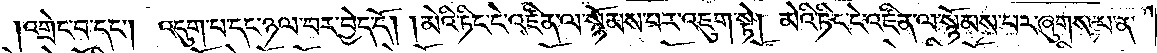འགྲེང་བ་དང༌། འདུག་པ་དང་ཉལ་བར་བྱེད་དོ། །མེའི་ཏིང་ངེ་འཛིན་ལ་སྙོམས་པར་འཇུག་སྟེ། མེའི་ཏིང་ངེ་འཛིན་ལ་སྙོམས་པར་ཞུགས་པ་ན་
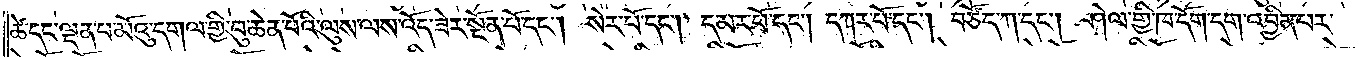ཚེ་དང་ལྡན་པ་མོའུ་དགལ་གྱི་བུ་ཆེན་པོའི་ལུས་ལས་འོད་ཟེར་སྔོན་པོ་དང༌། སེར་པོ་དང༌། དམར་པོ་དང༌། དཀར་པོ་དང༌། བཙོད་ཀ་དང༌། ཤེལ་གྱི་ཁ་དོག་དག་འབྱིན་པར་
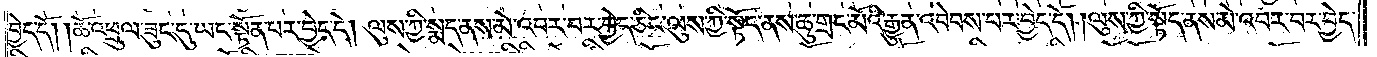བྱེད་དོ། །ཆོ་འཕྲུལ་ཟུང་དུ་ཡང་སྟོན་པར་བྱེད་དེ། ལུས་ཀྱི་སྨད་ནས་མེ་འབར་བར་བྱེད་ཅིང་ལུས་ཀྱི་སྟོད་ནས་ཆུ་གྲང་མོའི་རྒྱུན་འབེབས་པར་བྱེད་དོ། །ལུས་ཀྱི་སྟོད་ནས་མེ་འབར་བར་བྱེད་
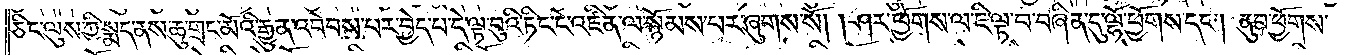ཅིང་ལུས་ཀྱི་སྨད་ནས་ཆུ་གྲང་མོའི་རྒྱུན་འབེབས་པར་བྱེད་པ་དེ་ལྟ་བུའི་ཏིང་ངེ་འཛིན་ལ་སྙོམས་པར་ཞུགས་སོ། །ཤར་ཕྱོགས་ལ་ཇི་ལྟ་བ་བཞིན་དུ་ལྷོ་ཕྱོགས་དང༌། ནུབ་ཕྱོགས་
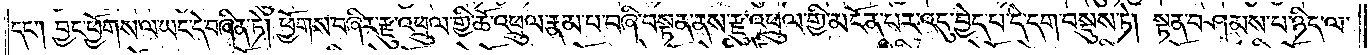དང༌། བྱང་ཕྱོགས་ལ་ཡང་དེ་བཞིན་ཏེ། ཕྱོགས་བཞིར་རྫུ་འཕྲུལ་གྱི་ཆོ་འཕྲུལ་རྣམ་པ་བཞི་བསྟན་ནས་རྫུ་འཕྲུལ་གྱི་མངོན་པར་འདུ་བྱེད་པ་དེ་དག་བསྡུས་ཏེ། སྟན་བཤམས་པ་ཉིད་ལ་
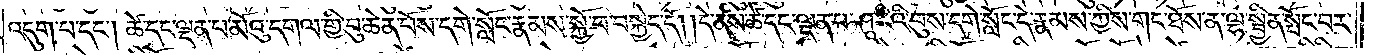འདུག་པ་དང༌། ཚེ་དང་ལྡན་པ་མོའུ་དགལ་གྱི་བུ་ཆེན་པོས་དགེ་སློང་རྣམས་སྐྱོ་བ་བསྐྱེད་དོ། །དེ་ནས་ཚེ་དང་ལྡན་པ་ཤཱ་རིའི་བུས་དགེ་སློང་དེ་རྣམས་ཀྱིས་གང་ཐོས་ན་ལྷ་སྦྱིན་སྤོང་བར་
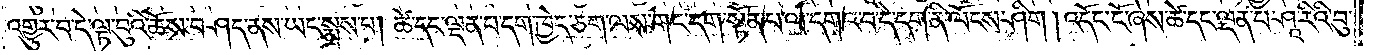འགྱུར་བ་དེ་ལྟ་བུའི་ཆོས་བཤད་ནས་ཡང་སྨྲས་པ། ཚེ་དང་ལྡན་པ་དག་ཁྱེད་ཅག་ལས་གང་དག་སྟོན་པ་ལ་དགའ་བ་དེ་དག་ནི་ལོངས་ཤིག །འདོང་ངོ་ཞེས་ཚེ་དང་ལྡན་པ་ཤཱ་རིའི་བུ་
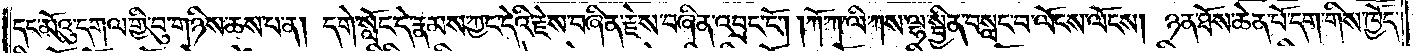དང་མོའུ་དགལ་གྱི་བུ་གཉིས་ཆས་པ་ན། དགེ་སློང་དེ་རྣམས་ཀྱང་དེའི་རྗེས་བཞིན་རྗེས་བཞིན་འབྲང་ངོ༌། །ཀོ་ཀ་ལི་ཀས་ལྷ་སྦྱིན་བསླང་བ་ལོངས་ལོངས། ཉན་ཐོས་ཆེན་པོ་དག་གིས་ཁྱོད་
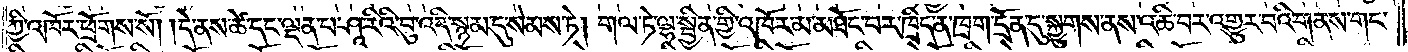ཀྱི་འཁོར་ཕྲོགས་སོ། །དེ་ནས་ཚེ་དང་ལྡན་པ་ཤཱ་རིའི་བུ་འདི་སྙམ་དུ་སེམས་ཏེ། གལ་ཏེ་ལྷ་སྦྱིན་གྱི་འཁོར་མ་མཐོང་བར་ཁྲིད་ན་ཁྲག་དྲོན་དུ་སྐྱུགས་ནས་འཆི་བར་འགྱུར་བའི་གནས་གང་
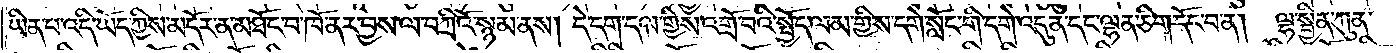ཡིན་པ་འདི་ཡོད་ཀྱིས་མདོར་ན་མཐོང་བ་ཁོ་ནར་བྱས་ལ་བཀྲིའོ་སྙམ་ནས། དེ་དག་དལ་གྱིས་འགྲོ་བའི་སྤྱོད་ལམ་གྱིས་དགེ་སློང་གི་དགེ་འདུན་དང་ལྷན་ཅིག་དོང་བ་ན། ལྷ་སྦྱིན་ཀུན་
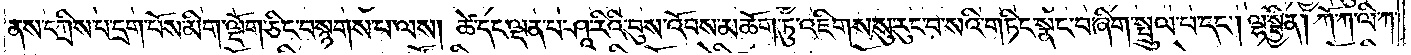ནས་དཀྲིས་པ་དྲག་པོས་མིག་ལྡོག་ཅིང་བསྙགས་པ་ལས། ཚེ་དང་ལྡན་པ་ཧཱ་རིའི་བུས་འོབས་མཆོག་ཏུ་འཇིགས་སུ་རུང་བ་སའི་གཏིང་སྣང་བ་ཞིག་སྤྲུལ་པ་དང༌། ལྷ་སྦྱིན། ཀོ་ཀ་ལི་ཀ་
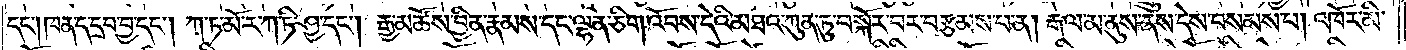དང༌། ཁན་ད་དྲབ་བྱ་དང༌། ཀ་ཏ་མོར་ཀ་ཏི་ཤྱ་དང༌། རྒྱ་མཚོས་བྱིན་རྣམས་དང་ལྷན་ཅིག་འོབས་དེའི་མཐའ་ཀུན་ཏུ་བསྐོར་བར་བརྩམས་པ་ན། རྒལ་མ་ནུས་ནས་དེས་བསམས་པ། འཁོར་མི་
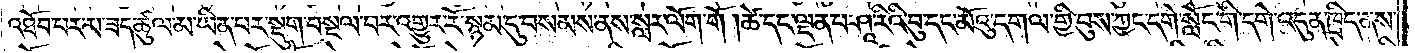འཐོབ་པར་མ་ཟད་ཚུལ་མ་ཡིན་པར་སྡུག་བསྔལ་བར་འགྱུར་རོ་སྙམ་དུ་བསམས་ནས་སླར་ལོག་གོ །ཚེ་དང་ལྡན་པ་ཤཱ་རིའི་བུ་དང་མོའུ་དགལ་གྱི་བུས་ཀྱང་དགེ་སློང་གི་དགེ་འདུན་ཁྲིད་ནས་
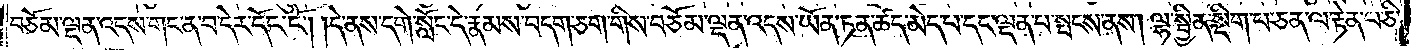བཅོམ་ལྡན་འདས་གང་ན་བ་དེར་དོང་ངོ༌། །དེ་ནས་དགེ་སློང་དེ་རྣམས་བདག་ཅག་གིས་བཅོམ་ལྡན་འདས་ཡོན་ཏན་ཚད་མེད་པ་དང་ལྡན་པ་སྤངས་ནས། ལྷ་སྦྱིན་སྡིག་པ་ཅན་ལ་རྟེན་པ་ཅི་
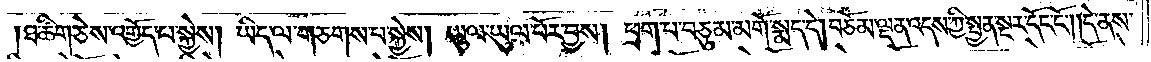།ཐ་ཚིག་ཅེས་འགྱོད་པ་སྐྱེས། ཡིད་ལ་གཅགས་པ་སྐྱེས། ཡུལ་ཡུལ་པོར་བྱས། ཕྲག་པ་བཅུམ་མགོ་སྨད་དེ། བཅོམ་ལྡན་འདས་ཀྱི་སྤྱན་སྔར་དོང་ངོ༌། །དེ་ནས་
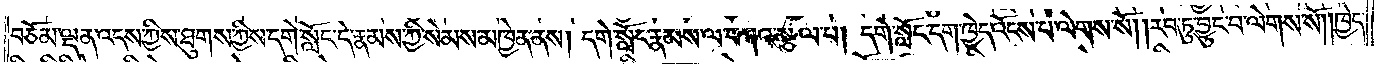བཅོམ་ལྡན་འདས་ཀྱིས་ཐུགས་ཀྱིས་དགེ་སློང་དེ་རྣམས་ཀྱི་སེམས་མཁྱེན་ནས། དགེ་སློང་རྣམས་ལ་བཀའ་སྩལ་པ། དགེ་སློང་དག་ཁྱེད་འོངས་པ་ལེགས་སོ། །རབ་ཏུ་བྱུང་བ་ལེགས་སོ། །ཁྱེད་
